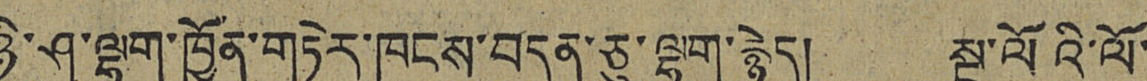ཉི་ཤུ་ལྷག་ཁྱོན་གཏེར་ཁུངས་བདུན་ཅུ་ལྷག་རྙེད། སྔ་ལོའི་ལོ་
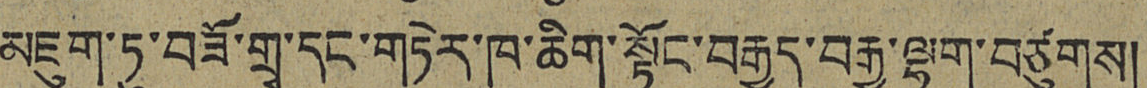མཇུག་ཏུ་བཟོ་གྲྭ་དང་གཏེར་ཁ་ཆིག་སྟོང་བརྒྱད་བརྒྱ་ལྷག་བཙུགས།
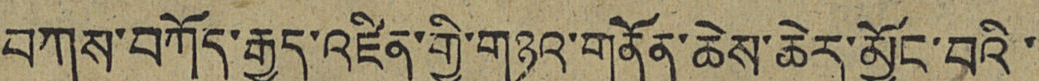བཀས་བཀོད་རྒྱུད་འཛིན་གྱི་གཉའ་གནོན་ཆེས་ཆེར་མྱོང་བའི་
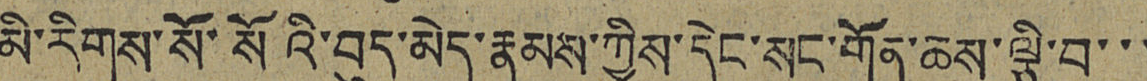མི་རིགས་སོ་སོའི་བུད་མེད་རྣམས་ཀྱིས་དེང་སང་གོན་ཆས་ལྕི་བ་་་
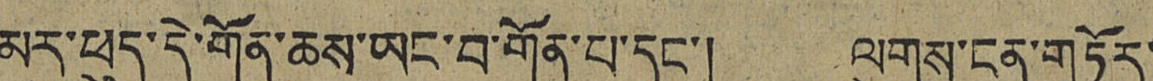མར་ཕུད་དེ་གོན་ཆས་ཡང་བ་གོན་པ་དང་། ལུགས་ངན་གཏོར་
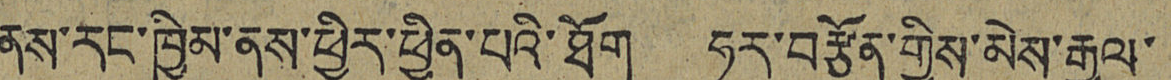ནས་རང་ཁྱིམ་ནས་ཕྱིར་ཕྱིན་པའི་ཐོག ཧུར་བརྩོན་གྱིས་མེས་རྒྱལ་
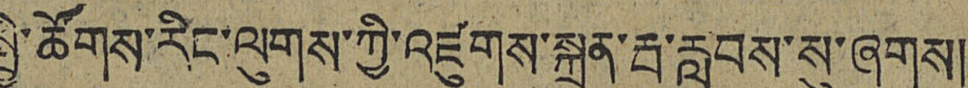སྤྱི་ཚོགས་རིང་ལུགས་ཀྱི་འཛུགས་སྐྲུན་རྦ་རླབས་སུ་ཞུགས།
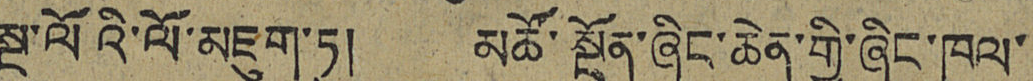སྔ་ལོའི་ལོ་མཇུག་ཏུ། མཚོ་སྔོན་ཞིང་ཆེན་གྱི་ཞིང་ཁུལ་
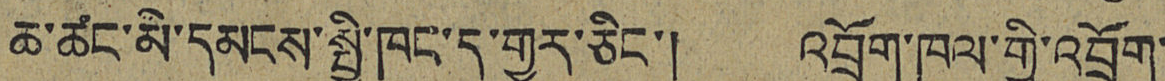ཆ་ཚང་མི་དམངས་སྤྱི་ཁང་དུ་གྱུར་ཅིང་། འབྲོག་ཁུལ་གྱི་འབྲོག་
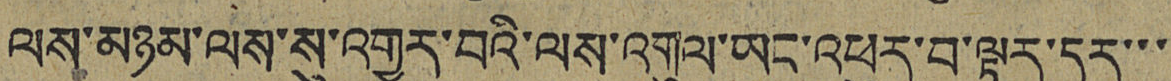ལས་མཉམ་ལས་སུ་འགྱུར་བའི་ལས་འགུལ་ཡང་འཕུར་བ་ལྟར་དར་་་
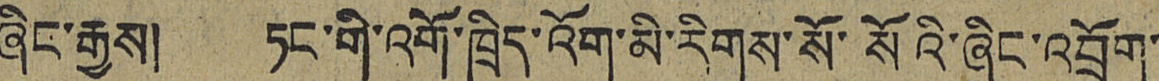ཞིང་རྒྱས། ཏང་གི་འགོ་ཁྲིད་འོག་མི་རིགས་སོ་སོའི་ཞིང་འབྲོག་
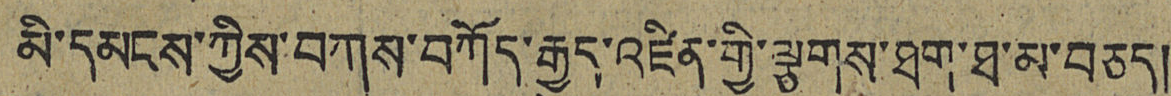མི་དམངས་ཀྱིས་བཀས་བཀོད་རྒྱུད་འཛིན་གྱི་ལྕགས་ཐག་ཐ་མ་བཅད།
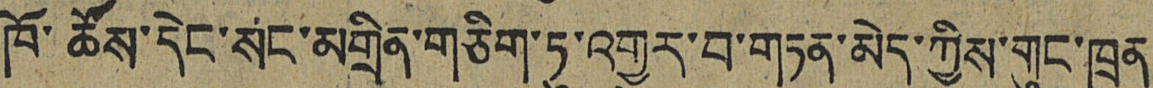ཁོ་ཚོས་དེང་སང་མགྲིན་གཅིག་ཏུ་འགྱུར་བ་གཏན་མེད་ཀྱིས་གུང་ཁྲན་
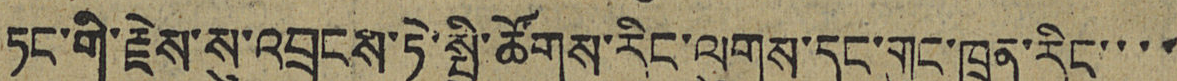ཏང་གི་རྗེས་སུ་འབྲངས་ཏེ་སྤྱི་ཚོགས་རིང་ལུགས་དང་གུང་ཁྲན་རིང་་་་
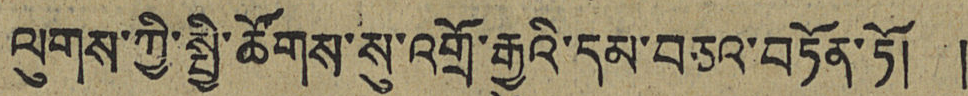ལུགས་ཀྱི་སྤྱི་ཚོགས་སུ་འགྲོ་རྒྱུའི་དམ་བཅའ་བཏོན་ཏོ། །
